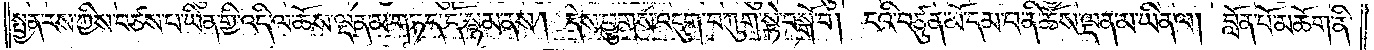སྤྱན་རས་ཀྱིས་བཙས་པ་ཡིན་གྱི་འདི་ལ་ཆོས་ལྡན་མ་གཏད་དོ་སྙམ་ནས། དེས་ཕྱུགས་འདུག་བཀུག་སྟེ་བསྒོ་བ། ངའི་བཙུན་མོ་དམ་པ་ནི་ཆོས་ལྡན་མ་ཡིན་ལ། བློན་པོ་མཆོག་ནི་
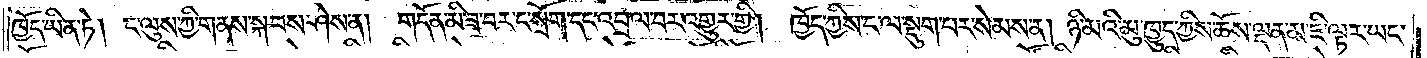ཁྱོད་ཡིན་ཏེ། ང་ལུས་ཀྱི་གནས་སྐབས་ཤེས་ན། གདོན་མི་ཟ་བར་ང་སྲོག་དང་འབྲལ་བར་འགྱུར་གྱི། ཁྱོད་ཀྱིས་ང་ལ་སྡུག་པར་སེམས་ན། ཉི་མའི་མུ་ཁྱུད་ཀྱིས་ཆོས་ལྡན་མ་ཇི་ལྟར་ཡང་
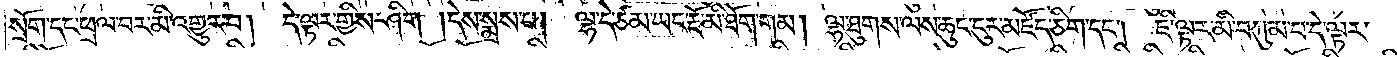སྲོག་དང་ཕྲལ་བར་མི་འགྱུར་བ། དེ་ལྟར་གྱིས་ཤིག །དེས་སྨྲས་པ། ལྷ་དེ་ཙམ་ཡང་རྔོ་མི་ཐོག་གམ། ལྷ་ཐུགས་ལས་ཆུང་ངུར་མཛོད་ཅིག་དང༌། ཇི་ལྟར་མི་བཀུར་མ་དེ་ལྟར་
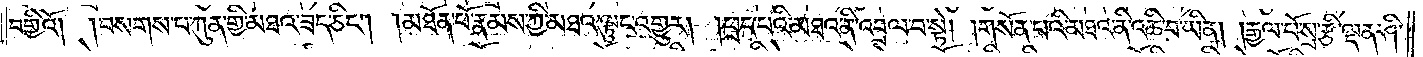བགྱིའོ། །བསགས་པ་ཀུན་གྱི་མཐའ་ཟད་ཅིང༌། །མཐོན་པོ་རྣམས་ཀྱི་མཐའ་ལྟུང་འགྱུར། །ཕྲད་པའི་མཐའ་ནི་འབྲལ་བ་སྟེ། །གསོན་པའི་མཐའི་ནི་འཆི་བ་ཡིན། །རྒྱལ་པོ་སྲས་རྩི་ལྡན་ཤི་
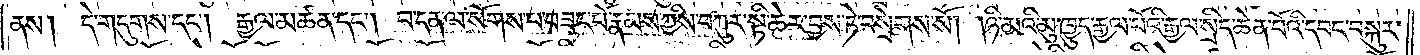ནས། དེ་གདུགས་དང༌། རྒྱལ་མཚན་དང༌། བ་དན་ལ་སོགས་པ་བཟང་པོ་རྣམས་ཀྱིས་བཀུར་སྟི་ཆེར་བྱས་ཏེ་བསྲེགས་སོ། །ཉི་མའི་མུ་ཁྱུད་རྒྱལ་པོའི་རྒྱལ་སྲིད་ཆེན་པོའི་དབང་བསྐུར་
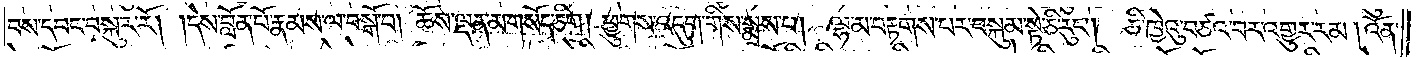བས་དབང་བསྐུར་རོ། །དེས་བློན་པོ་རྣམས་ལ་བསྒོ་བ། ཆོས་ལྡན་མ་གསོད་ཅིག །ཕྱུགས་འདུག་གིས་སྨྲས་པ། ལྷ་མ་བརྟགས་པར་བསྐུམ་སྟེ་ཅི་རུང༌། ཅི་ཁྱེའི་བཙའ་བར་འགྱུར་རམ། འོན་
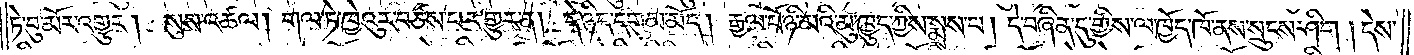ཏེ་བུ་མོར་འགྱུར། སུས་འཚལ། གལ་ཏེ་ཁྱེའུར་བཙས་པར་གྱུར་ན། དེ་ཉིད་དགུམ་མོད། རྒྱལ་པོ་ཉི་མའི་མུ་ཁྱུད་ཀྱིས་སྨྲས་པ། དེ་བཞིན་དུ་གྱིས་ལ་ཁྱོད་ཁོ་ནས་སྲུངས་ཤིག །དེས་
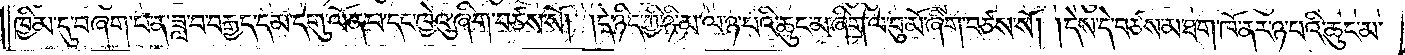ཁྱིམ་དུ་བཞག་པ་ན་ཟླ་བ་བརྒྱད་དམ་དགུ་ལོན་པ་དང་ཁྱེའུ་ཞིག་བཙས་སོ། །དེ་ཉིད་ཀྱི་ཉི་མ་ལ་ཉ་པའི་ཆུང་མ་ཞིག་ལ་བུ་མོ་ཞིག་བཙས་སོ། །དེས་དེ་བཙས་མ་ཐག་ཁོ་ནར་ཉ་བའི་ཆུང་མ་
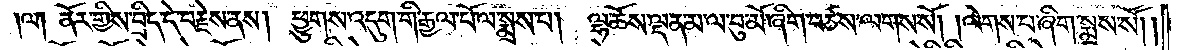ལ། ནོར་གྱིས་བྲིད་དེ་བརྗེས་ནས། ཕྱུགས་འདུག་གི་རྒྱལ་པོ་ལ་སྨྲས་པ། ལྷ་ཆོས་ལྡན་མ་ལ་བུ་མོ་ཞིག་བཙས་ལགས་སོ། །ལེགས་པ་ཞིག་སྨྲས་སོ། །
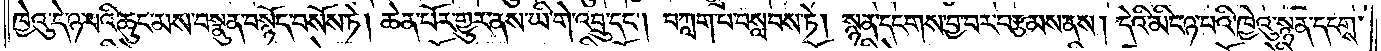ཁྱེའུ་དེ་ཉ་པའི་ཆུང་མས་བསྣུན་བསྙོད་བསོས་ཏེ། ཆེན་པོར་གྱུར་ནས་ཡི་གེ་འབྲུ་དང༌། བཀླག་པ་བསླབས་ཏེ། སྙན་དངགས་བྱ་བར་བརྩམས་ནས། དེའི་མིང་ཉ་པའི་ཁྱེའུ་སྙན་དངགས་
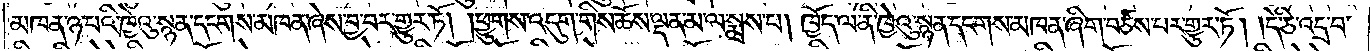མཁན་ཉ་པའི་ཁྱེའུ་སྙན་དངགས་མཁན་ཞེས་བྱ་བར་གྱུར་ཏོ། །ཕྱུགས་འདུག་གིས་ཆོས་ལྡན་མ་ལ་སྨྲས་པ། ཁྱོད་ལ་ནི་ཁྱེའུ་སྙན་དངགས་མཁན་ཞིག་བཙས་པར་གྱུར་ཏོ། །དེ་ཅི་འདྲ་བ་
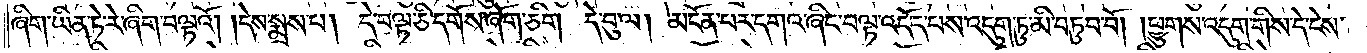ཞིག་ཡིན་ཏེ་རེ་ཞིག་བལྟའོ། །དེས་སྨྲས་པ། དེ་བལྟ་ཅི་དགོས་ཞོག་ཅིག །དེ་བུ་ལ། མངོན་པར་དགའ་ཞིང་བལྟ་འདོད་པས་འདུག་ཏུ་མི་བཏུབ་བོ། །ཕྱུགས་འདུག་གིས་དེ་ངེས་
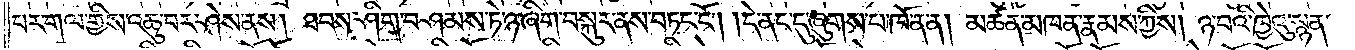པར་གལ་གྱིས་འཆུ་བར་ཤེས་ནས། ཐབས་ཤིག་བཤམས་ཏེ་ཉ་ཞིག་བསྐུར་ནས་བཏང་ངོ༌། །དེ་ནང་དུ་ཞུགས་པ་ཁོ་ན་ན། མཚན་མཁན་རྣམས་ཀྱིས། ཉ་བའི་ཁྱེའུ་སྙན་
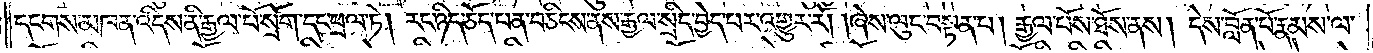དངགས་མཁན་འདིས་ནི་རྒྱལ་པོ་སྲོག་དང་ཕྲལ་ཏེ། རང་ཉིད་ཅོད་པན་བཅིངས་ནས་རྒྱལ་སྲིད་བྱེད་པར་འགྱུར་རོ། །ཞེས་ལུང་བསྟན་པ། རྒྱལ་པོས་ཐོས་ནས། དེས་བློན་པོ་རྣམས་ལ་
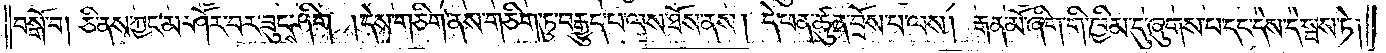བསྒོ་བ། ཅི་ནས་ཀྱང་མ་ཤོར་བར་ཟུངས་ཤིག །དེས་གཅིག་ནས་གཅིག་ཏུ་བརྒྱུད་པ་ལས་ཐོས་ནས། དེ་ཕན་ཚུན་བྲོས་པ་ལས། རྒན་མོ་ཞིག་གི་ཁྱིམ་དུ་ཞུགས་པ་དང་དེས་དེ་སྦས་ཏེ།
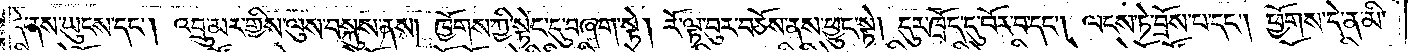དེ་ནས་ཡུངས་དང༌། འབྲུ་མར་གྱིས་ལུས་བསྐུས་ནས། ཁྱོགས་ཀྱི་སྟེང་དུ་བཞག་སྟེ། རོ་ལྟ་བུར་བཅོས་ནས་ཕྱུང་སྟེ། དུར་ཁྲོད་དུ་བོར་བ་དང༌། ལངས་ཏེ་བྲོས་པ་དང༌། ཕྱོགས་དེ་ན་མི་
